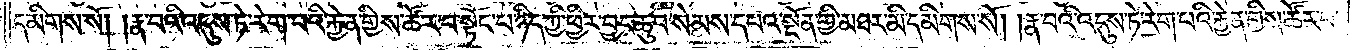དམིགས་སོ། །རྣ་བའི་འདུས་ཏེ་རེག་པའི་རྐྱེན་གྱིས་ཚོར་བ་སྟོང་པ་ཉིད་ཀྱི་ཕྱིར་བྱང་ཆུབ་སེམས་དཔའ་སྔོན་གྱི་མཐར་མི་དམིགས་སོ། །རྣ་བའི་འདུས་ཏེ་རེག་པའི་རྐྱེན་གྱིས་ཚོར་བ་
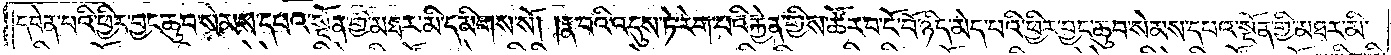དབེན་པའི་ཕྱིར་བྱང་ཆུབ་སེམས་དཔའ་སྔོན་གྱི་མཐར་མི་དམིགས་སོ། །རྣ་བའི་འདུས་ཏེ་རེག་པའི་རྐྱེན་གྱིས་ཚོར་བ་ངོ་བོ་ཉིད་མེད་པའི་ཕྱིར་བྱང་ཆུབ་སེམས་དཔའ་སྔོན་གྱི་མཐར་མི་
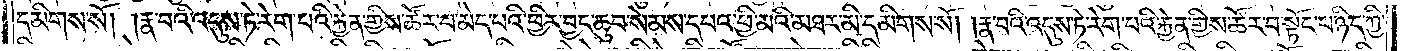དམིགས་སོ། །རྣ་བའི་འདུས་ཏེ་རེག་པའི་རྐྱེན་གྱིས་ཚོར་བ་མེད་པའི་ཕྱིར་བྱང་ཆུབ་སེམས་དཔའ་ཕྱི་མའི་མཐར་མི་དམིགས་སོ། །རྣ་བའི་འདུས་ཏེ་རེག་པའི་རྐྱེན་གྱིས་ཚོར་བ་སྟོང་པ་ཉིད་ཀྱི་
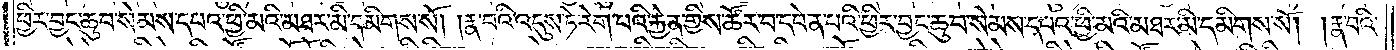ཕྱིར་བྱང་ཆུབ་སེམས་དཔའ་ཕྱི་མའི་མཐར་མི་དམིགས་སོ། །རྣ་བའི་འདུས་ཏེ་རེག་པའི་རྐྱེན་གྱིས་ཚོར་བ་དབེན་པའི་ཕྱིར་བྱང་ཆུབ་སེམས་དཔའ་ཕྱི་མའི་མཐར་མི་དམིགས་སོ། །རྣ་བའི་
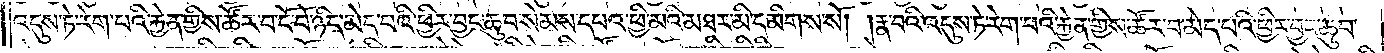འདུས་ཏེ་རེག་པའི་རྐྱེན་གྱིས་ཚོར་བ་ངོ་བོ་ཉིད་མེད་པའི་ཕྱིར་བྱང་ཆུབ་སེམས་དཔའ་ཕྱི་མའི་མཐར་མི་དམིགས་སོ། །རྣ་བའི་འདུས་ཏེ་རེག་པའི་རྐྱེན་གྱིས་ཚོར་བ་མེད་པའི་ཕྱིར་བྱང་ཆུབ་
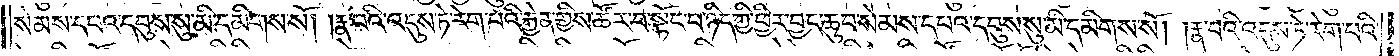སེམས་དཔའ་དབུས་སུ་མི་དམིགས་སོ། །རྣ་བའི་འདུས་ཏེ་རེག་པའི་རྐྱེན་གྱིས་ཚོར་བ་སྟོང་པ་ཉིད་ཀྱི་ཕྱིར་བྱང་ཆུབ་སེམས་དཔའ་དབུས་སུ་མི་དམིགས་སོ། །རྣ་བའི་འདུས་ཏེ་རེག་པའི་
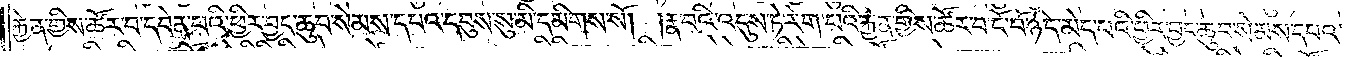རྐྱེན་གྱིས་ཚོར་བ་དབེན་པའི་ཕྱིར་བྱང་ཆུབ་སེམས་དཔའ་དབུས་སུ་མི་དམིགས་སོ། །རྣ་བའི་འདུས་ཏེ་རེག་པའི་རྐྱེན་གྱིས་ཚོར་བ་ངོ་བོ་ཉིད་མེད་པའི་ཕྱིར་བྱང་ཆུབ་སེམས་དཔའ་
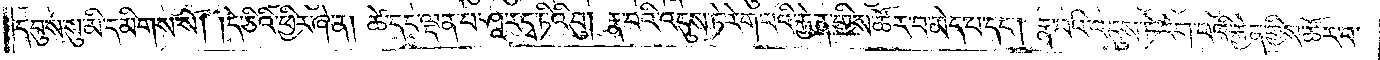དབུས་སུ་མི་དམིགས་སོ། །དེ་ཅིའི་ཕྱིར་ཞེ་ན། ཚེ་དང་ལྡན་པ་ཤཱ་རདྭ་ཏིའི་བུ། རྣ་བའི་འདུས་ཏེ་རེག་པའི་རྐྱེན་གྱིས་ཚོར་བ་མེད་པ་དང༌། རྣ་བའི་འདུས་ཏེ་རེག་པའི་རྐྱེན་གྱིས་ཚོར་བ་
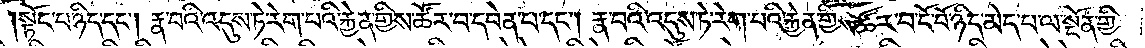སྟོང་པ་ཉིད་དང༌། རྣ་བའི་འདུས་ཏེ་རེག་པའི་རྐྱེན་གྱིས་ཚོར་བ་དབེན་པ་དང༌། རྣ་བའི་འདུས་ཏེ་རེག་པའི་རྐྱེན་གྱིས་ཚོར་བ་ངོ་བོ་ཉིད་མེད་པ་ལ་སྔོན་གྱི་
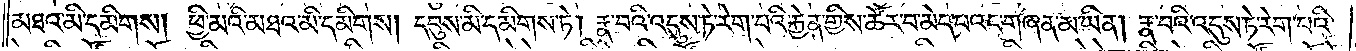མཐའ་མི་དམིགས། ཕྱི་མའི་མཐའ་མི་དམིགས། དབུས་མི་དམིགས་ཏེ། རྣ་བའི་འདུས་ཏེ་རེག་པའི་རྐྱེན་གྱིས་ཚོར་བ་མེད་པའང་གཞན་མ་ཡིན། རྣ་བའི་འདུས་ཏེ་རེག་པའི་
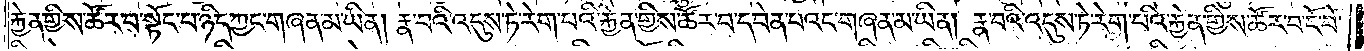རྐྱེན་གྱིས་ཚོར་བ་སྟོང་པ་ཉིད་ཀྱང་གཞན་མ་ཡིན། རྣ་བའི་འདུས་ཏེ་རེག་པའི་རྐྱེན་གྱིས་ཚོར་བ་དབེན་པའང་གཞན་མ་ཡིན། རྣ་བའི་འདུས་ཏེ་རེག་པའི་རྐྱེན་གྱིས་ཚོར་བ་ངོ་བོ་
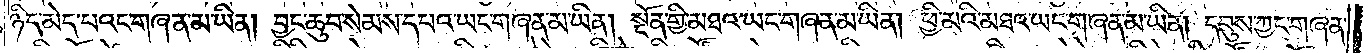ཉིད་མེད་པའང་གཞན་མ་ཡིན། བྱང་ཆུབ་སེམས་དཔའ་ཡང་གཞན་མ་ཡིན། སྔོན་གྱི་མཐའ་ཡང་གཞན་མ་ཡིན། ཕྱི་མའི་མཐའ་ཡང་གཞན་མ་ཡིན། དབུས་ཀྱང་གཞན་
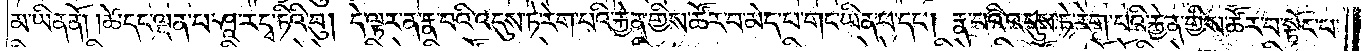མ་ཡིན་ནོ། །ཚེ་དང་ལྡན་པ་ཤཱ་རདྭ་ཏིའི་བུ། དེ་ལྟར་ན་རྣ་བའི་འདུས་ཏེ་རེག་པའི་རྐྱེན་གྱིས་ཚོར་བ་མེད་པ་གང་ཡིན་པ་དང༌། རྣ་བའི་འདུས་ཏེ་རེག་པའི་རྐྱེན་གྱིས་ཚོར་བ་སྟོང་པ་
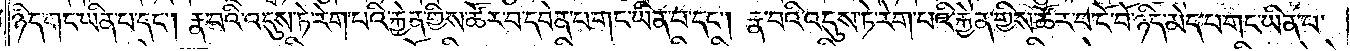ཉིད་གང་ཡིན་པ་དང༌། རྣ་བའི་འདུས་ཏེ་རེག་པའི་རྐྱེན་གྱིས་ཚོར་བ་དབེན་པ་གང་ཡིན་པ་དང༌། རྣ་བའི་འདུས་ཏེ་རེག་པའི་རྐྱེན་གྱིས་ཚོར་བ་ངོ་བོ་ཉིད་མེད་པ་གང་ཡིན་པ་
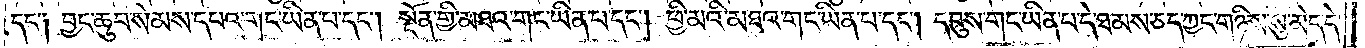དང་༑ བྱང་ཆུབ་སེམས་དཔའ་གང་ཡིན་པ་དང༌། སྔོན་གྱི་མཐའ་གང་ཡིན་པ་དང༌། ཕྱི་མའི་མཐའ་གང་ཡིན་པ་དང༌། དབུས་གང་ཡིན་པ་དེ་ཐམས་ཅད་ཀྱང་གཉིས་སུ་མེད་དེ་
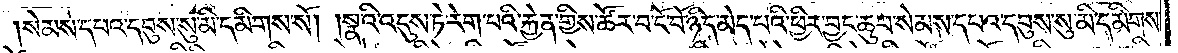སེམས་དཔའ་དབུས་སུ་མི་དམིགས་སོ། །སྣའི་འདུས་ཏེ་རེག་པའི་རྐྱེན་གྱིས་ཚོར་བ་ངོ་བོ་ཉིད་མེད་པའི་ཕྱིར་བྱང་ཆུབ་སེམས་དཔའ་དབུས་སུ་མི་དམིགས་
